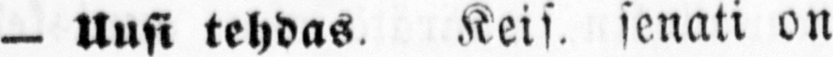— Uusi tehdas. Keis. senati on
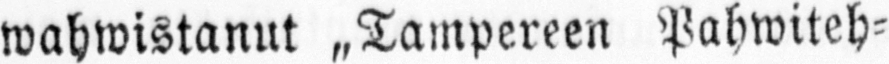wahwistanut „Tampereen Pahwiteh-
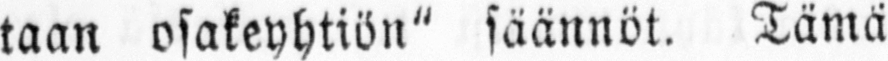taan osakeyhtiön" säännöt. Tämä
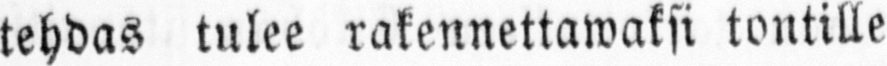tehdas tulee rakennettawaksi tontille
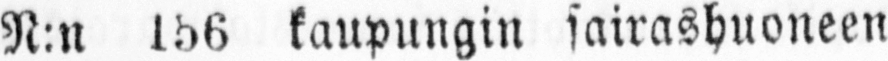N.n 156 kaupungin sairashuoneen
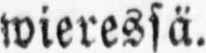wieressä.
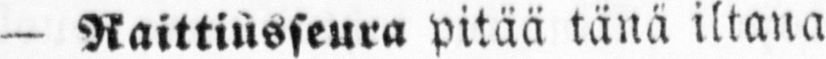— Raittiusseura pitää tänä iltana
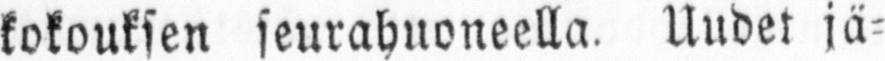kokouksen seurahuoneella. Uudet jä-
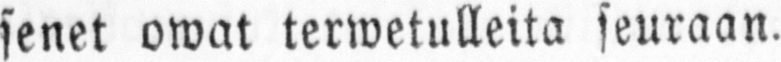senet owat terwetulleita seuraan.
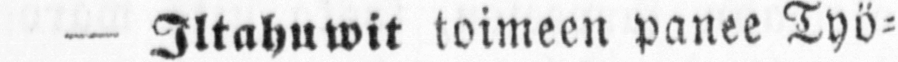— Iltahuwit toimeen panee Työ-
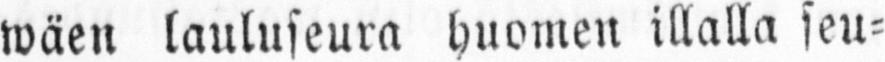wäen lauluseura huomen illalla seu-
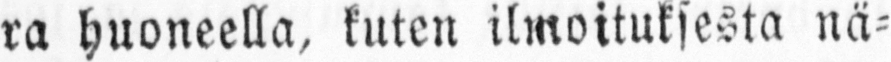ra huoneella, kuten ilmoituksesta nä-
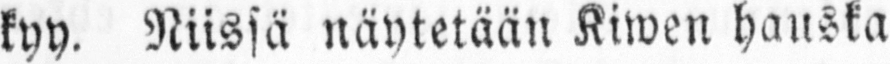kyy. Niissä näytetään Kiwen hauska
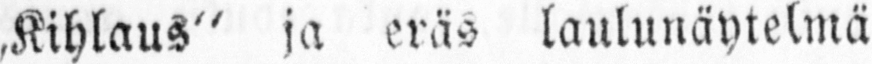„Kihlaus" ja eräs laulunäytelmä
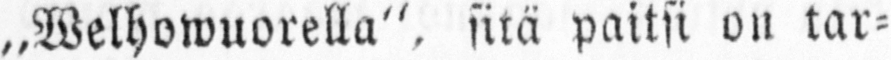„Welhowuorella", sitä paitsi on tar-
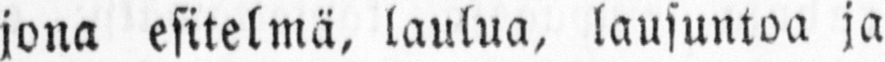jona esitelmä, laulua, lausuntoa ja
